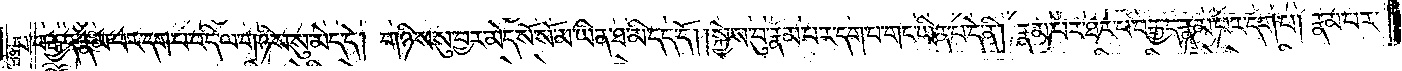པ་བརྒྱད་རྣམ་པར་དག་པ་འདི་ལ་གཉིས་སུ་མེད་དེ། གཉིས་སུ་བྱར་མེད་སོ་སོ་མ་ཡིན་ཐ་མི་དད་དོ། །སྐྱེས་བུ་རྣམ་པར་དག་པ་གང་ཡིན་པ་དེ་ནི། རྣམ་པར་ཐར་པ་བརྒྱད་རྣམ་པར་དག་པ། རྣམ་པར་
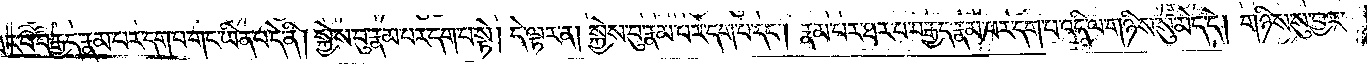ཐར་པ་བརྒྱད་རྣམ་པར་དག་པ་གང་ཡིན་པ་དེ་ནི། སྐྱེས་བུ་རྣམ་པར་དག་པ་སྟེ། དེ་ལྟར་ན། སྐྱེས་བུ་རྣམ་པར་དག་པ་དང༌། རྣམ་པར་ཐར་པ་བརྒྱད་རྣམ་པར་དག་པ་འདི་ལ་གཉིས་སུ་མེད་དེ། གཉིས་སུ་བྱར་
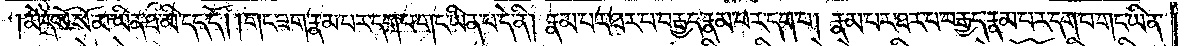མེད་སོ་སོ་མ་ཡིན་ཐ་མི་དད་དོ། །གང་ཟག་རྣམ་པར་དག་པ་གང་ཡིན་པ་དེ་ནི། རྣམ་པར་ཐར་པ་བརྒྱད་རྣམ་པར་དག་པ། རྣམ་པར་ཐར་པ་བརྒྱད་རྣམ་པར་དག་པ་གང་ཡིན་
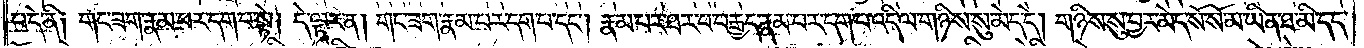པ་དེ་ནི། གང་ཟག་རྣམ་པར་དག་པ་སྟེ། དེ་ལྟར་ན། གང་ཟག་རྣམ་པར་དག་པ་དང༌། རྣམ་པར་ཐར་པ་བརྒྱད་རྣམ་པར་དག་པ་འདི་ལ་གཉིས་སུ་མེད་དེ། གཉིས་སུ་བྱར་མེད་སོ་སོ་མ་ཡིན་ཐ་མི་དད་
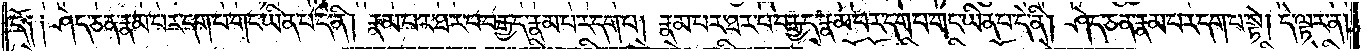དོ༑ ༑ཤེད་ཅན་རྣམ་པར་དག་པ་གང་ཡིན་པ་དེ་ནི། རྣམ་པར་ཐར་པ་བརྒྱད་རྣམ་པར་དག་པ། རྣམ་པར་ཐར་པ་བརྒྱད་རྣམ་པར་དག་པ་གང་ཡིན་པ་དེ་ནི། ཤེད་ཅན་རྣམ་པར་དག་པ་སྟེ། དེ་ལྟར་ན།
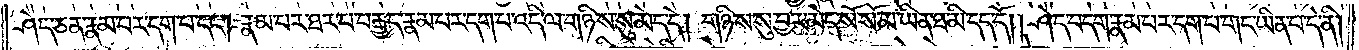ཤེད་ཅན་རྣམ་པར་དག་པ་དང༌། རྣམ་པར་ཐར་པ་བརྒྱད་རྣམ་པར་དག་པ་འདི་ལ་གཉིས་སུ་མེད་དེ། གཉིས་སུ་བྱར་མེད་སོ་སོ་མ་ཡིན་ཐ་མི་དད་དོ། །ཤེད་བདག་རྣམ་པར་དག་པ་གང་ཡིན་པ་དེ་ནི།
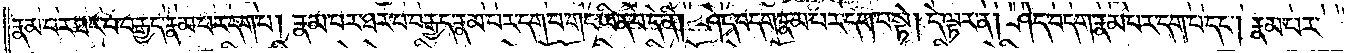རྣམ་པར་ཐར་པ་བརྒྱད་རྣམ་པར་དག་པ། རྣམ་པར་ཐར་པ་བརྒྱད་རྣམ་པར་དག་པ་གང་ཡིན་པ་དེ་ནི། ཤེད་བདག་རྣམ་པར་དག་པ་སྟེ། དེ་ལྟར་ན། ཤེད་བདག་རྣམ་པར་དག་པ་དང༌། རྣམ་པར་
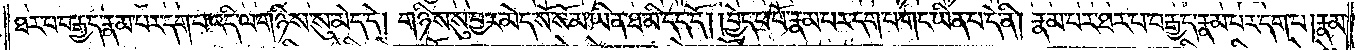ཐར་པ་བརྒྱད་རྣམ་པར་དག་པ་འདི་ལ་གཉིས་སུ་མེད་དེ། གཉིས་སུ་བྱར་མེད་སོ་སོ་མ་ཡིན་ཐ་མི་དད་དོ། །བྱེད་པ་པོ་རྣམ་པར་དག་པ་གང་ཡིན་པ་དེ་ནི། རྣམ་པར་ཐར་པ་བརྒྱད་རྣམ་པར་དག་པ། རྣམ་
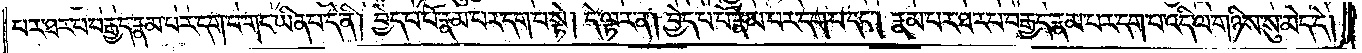པར་ཐར་པ་བརྒྱད་རྣམ་པར་དག་པ་གང་ཡིན་པ་དེ་ནི། བྱེད་པ་པོ་རྣམ་པར་དག་པ་སྟེ། དེ་ལྟར་ན། བྱེད་པ་པོ་རྣམ་པར་དག་པ་དང༌། རྣམ་པར་ཐར་པ་བརྒྱད་རྣམ་པར་དག་པ་འདི་ལ་གཉིས་སུ་མེད་དེ།
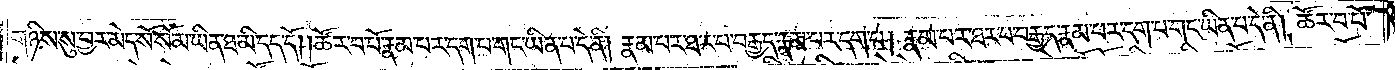གཉིས་སུ་བྱར་མེད་སོ་སོ་མ་ཡིན་ཐ་མི་དད་དོ། །ཚོར་བ་པོ་རྣམ་པར་དག་པ་གང་ཡིན་པ་དེ་ནི། རྣམ་པར་ཐར་པ་བརྒྱད་རྣམ་པར་དག་པ། རྣམ་པར་ཐར་པ་བརྒྱད་རྣམ་པར་དག་པ་གང་ཡིན་པ་དེ་ནི། ཚོར་བ་པོ་
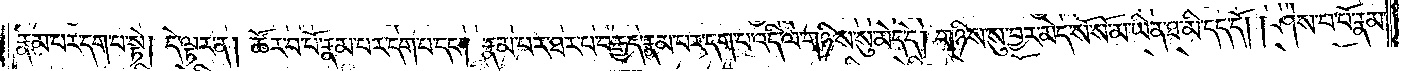རྣམ་པར་དག་པ་སྟེ། དེ་ལྟར་ན། ཚོར་བ་པོ་རྣམ་པར་དག་པ་དང༌། རྣམ་པར་ཐར་པ་བརྒྱད་རྣམ་པར་དག་པ་འདི་ལ་གཉིས་སུ་མེད་དེ། གཉིས་སུ་བྱར་མེད་སོ་སོ་མ་ཡིན་ཐ་མི་དད་དོ། །ཤེས་པ་པོ་རྣམ་
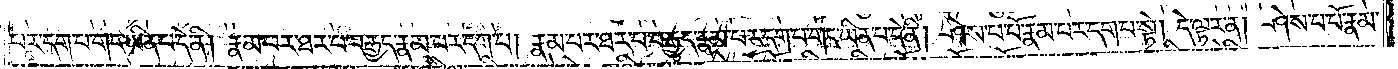པར་དག་པ་གང་ཡིན་པ་དེ་ནི། རྣམ་པར་ཐར་པ་བརྒྱད་རྣམ་པར་དག་པ། རྣམ་པར་ཐར་པ་བརྒྱད་རྣམ་པར་དག་པ་གང་ཡིན་པ་དེ་ནི། ཤེས་པ་པོ་རྣམ་པར་དག་པ་སྟེ། དེ་ལྟར་ན། ཤེས་པ་པོ་རྣམ་
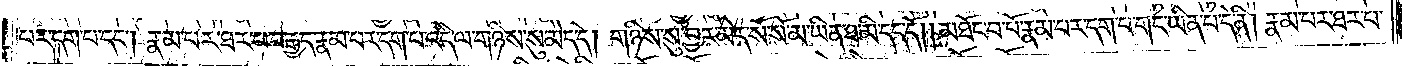པར་དག་པ་དང༌། རྣམ་པར་ཐར་པ་བརྒྱད་རྣམ་པར་དག་པ་འདི་ལ་གཉིས་སུ་མེད་དེ། གཉིས་སུ་བྱར་མེད་སོ་སོ་མ་ཡིན་ཐ་མི་དད་དོ། །མཐོང་བ་པོ་རྣམ་པར་དག་པ་གང་ཡིན་པ་དེ་ནི། རྣམ་པར་ཐར་པ་
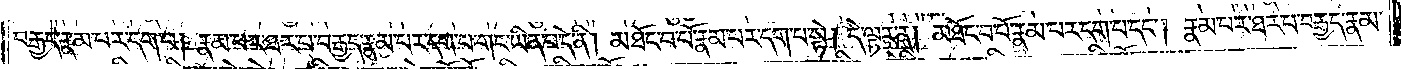བརྒྱད་རྣམ་པར་དག་པ། རྣམ་པར་ཐར་པ་བརྒྱད་རྣམ་པར་དག་པ་གང་ཡིན་པ་དེ་ནི། མཐོང་བ་པོ་རྣམ་པར་དག་པ་སྟེ། དེ་ལྟར་ན། མཐོང་བ་པོ་རྣམ་པར་དག་པ་དང༌། རྣམ་པར་ཐར་པ་བརྒྱད་རྣམ་
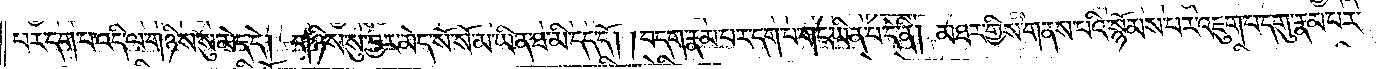པར་དག་པ་འདི་ལ་གཉིས་སུ་མེད་དེ། གཉིས་སུ་བྱར་མེད་སོ་སོ་མ་ཡིན་ཐ་མི་དད་དོ། །བདག་རྣམ་པར་དག་པ་གང་ཡིན་པ་དེ་ནི། མཐར་གྱིས་གནས་པའི་སྙོམས་པར་འཇུག་པ་དགུ་རྣམ་པར་
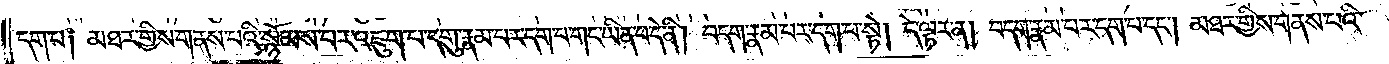དག་པ། མཐར་གྱིས་གནས་པའི་སྙོམས་པར་འཇུག་པ་དགུ་རྣམ་པར་དག་པ་གང་ཡིན་པ་དེ་ནི། བདག་རྣམ་པར་དག་པ་སྟེ། དེ་ལྟར་ན། བདག་རྣམ་པར་དག་པ་དང༌། མཐར་གྱིས་གནས་བའི་
